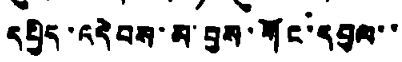དཔྱིད་འདེབས་མ་བྱས་གོང་དབུལ་་
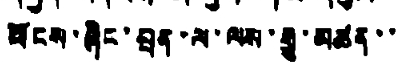ཕོངས་ཞིང་བྲན་ལ་ལས་རྒྱུ་མཚན་་
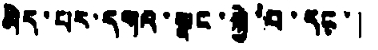མེད་པར་དགའ་སྣང་སྐྱེ་བ་དང་།
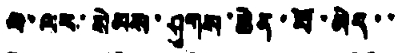ལ་ལར་སེམས་ཤུགས་ཆེན་པོ་མེད་་
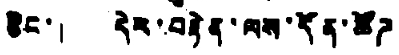ཅིང་། དེར་བརྟེན་ལས་དོན་ཚོཌ
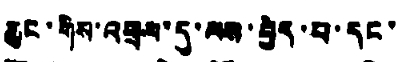ཆུང་གིས་འཕྲས་དུ་ལས་བྱེད་པ་དང་
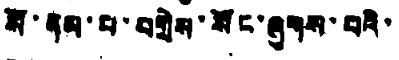སོ་ནམ་པ་བགྲེས་སོང་ཞུགས་པའི་
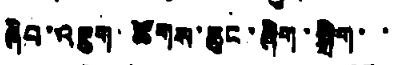ཞིབ་འཇུག་ཚོགས་ཆུང་ཞིག་སྒྲིག་་
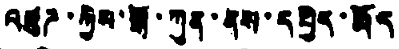འཛུཌ་ཀྱིས་སྒོ་ཀུན་ནས་དཔྱིད་རྨོད
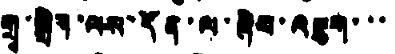གྲྭ་སྒྲིག་ལས་དོན་ལ་ཞིབ་འཇུག་་་
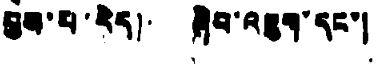བྱས་པ་རེད། ཞིབ་འཇུག་དང་།
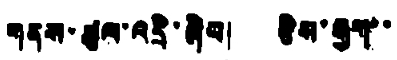གནས་ཚུལ་འདྲི་ཞིབ། རྩིས་རྒྱག་་
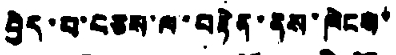བྱེད་པ་བཅས་ལ་བརྟེན་ནས་ཁེངས་
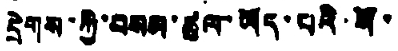དྲེགས་ཀྱི་བསམ་ཚུལ་ཡོད་པའི་སོ་
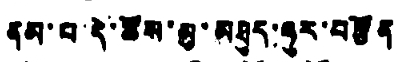ནམ་པ་དེ་ཚོས་མུ་མཐུད་ཧུར་བརྩོན
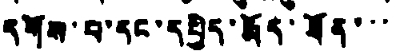དགོས་པ་དང་དཔྱིད་རྨོད་ཐོན་་་
